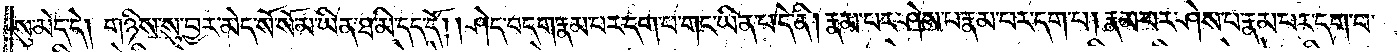སུ་མེད་དེ། གཉིས་སུ་བྱར་མེད་སོ་སོ་མ་ཡིན་ཐ་མི་དད་དོ། །ཤེད་བདག་རྣམ་པར་དག་པ་གང་ཡིན་པ་དེ་ནི། རྣམ་པར་ཤེས་པ་རྣམ་པར་དག་པ། རྣམ་པར་ཤེས་པ་རྣམ་པར་དག་པ་
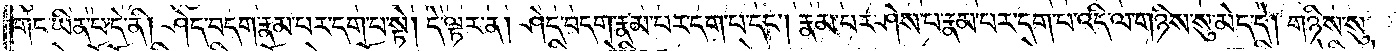གང་ཡིན་པ་དེ་ནི། ཤེད་བདག་རྣམ་པར་དག་པ་སྟེ། དེ་ལྟར་ན། ཤེད་བདག་རྣམ་པར་དག་པ་དང༌། རྣམ་པར་ཤེས་པ་རྣམ་པར་དག་པ་འདི་ལ་གཉིས་སུ་མེད་དེ། གཉིས་སུ་
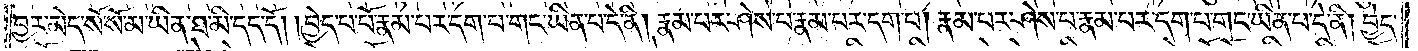བྱར་མེད་སོ་སོ་མ་ཡིན་ཐ་མི་དད་དོ། །བྱེད་པ་པོ་རྣམ་པར་དག་པ་གང་ཡིན་པ་དེ་ནི། རྣམ་པར་ཤེས་པ་རྣམ་པར་དག་པ། རྣམ་པར་ཤེས་པ་རྣམ་པར་དག་པ་གང་ཡིན་པ་དེ་ནི། བྱེད་
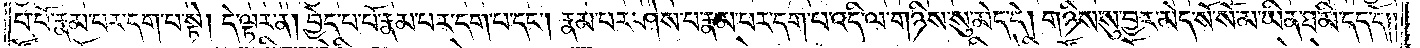པ་པོ་རྣམ་པར་དག་པ་སྟེ། དེ་ལྟར་ན། བྱེད་པ་པོ་རྣམ་པར་དག་པ་དང༌། རྣམ་པར་ཤེས་པ་རྣམ་པར་དག་པ་འདི་ལ་གཉིས་སུ་མེད་དེ། གཉིས་སུ་བྱར་མེད་སོ་སོ་མ་ཡིན་ཐ་མི་དད་དོ། །
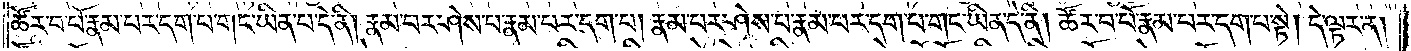ཚོར་བ་པོ་རྣམ་པར་དག་པ་གང་ཡིན་པ་དེ་ནི། རྣམ་པར་ཤེས་པ་རྣམ་པར་དག་པ། རྣམ་པར་ཤེས་པ་རྣམ་པར་དག་པ་གང་ཡིན་པ་དེ་ནི། ཚོར་བ་པོ་རྣམ་པར་དག་པ་སྟེ། དེ་ལྟར་ན།
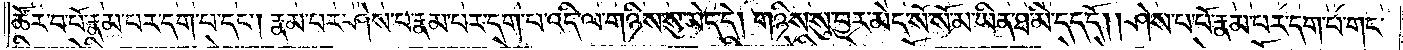ཚོར་བ་པོ་རྣམ་པར་དག་པ་དང༌། རྣམ་པར་ཤེས་པ་རྣམ་པར་དག་པ་འདི་ལ་གཉིས་སུ་མེད་དེ། གཉིས་སུ་བྱར་མེད་སོ་སོ་མ་ཡིན་ཐ་མི་དད་དོ། །ཤེས་པ་པོ་རྣམ་པར་དག་པ་གང་
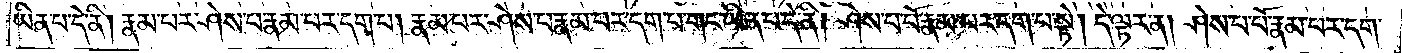ཡིན་པ་དེ་ནི། རྣམ་པར་ཤེས་པ་རྣམ་པར་དག་པ། རྣམ་པར་ཤེས་པ་རྣམ་པར་དག་པ་གང་ཡིན་པ་དེ་ནི། ཤེས་པ་པོ་རྣམ་པར་དག་པ་སྟེ། དེ་ལྟར་ན། ཤེས་པ་པོ་རྣམ་པར་དག་
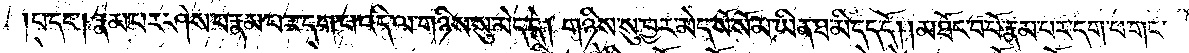པ་དང༌། རྣམ་པར་ཤེས་པ་རྣམ་པར་དག་པ་འདི་ལ་གཉིས་སུ་མེད་དེ། གཉིས་སུ་བྱར་མེད་སོ་སོ་མ་ཡིན་ཐ་མི་དད་དོ། །མཐོང་བ་པོ་རྣམ་པར་དག་པ་གང་
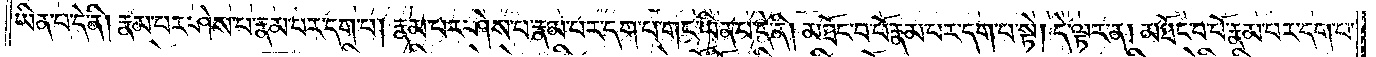ཡིན་པ་དེ་ནི། རྣམ་པར་ཤེས་པ་རྣམ་པར་དག་པ། རྣམ་པར་ཤེས་པ་རྣམ་པར་དག་པ་གང་ཡིན་པ་དེ་ནི། མཐོང་བ་པོ་རྣམ་པར་དག་པ་སྟེ། དེ་ལྟར་ན། མཐོང་བ་པོ་རྣམ་པར་དག་པ་
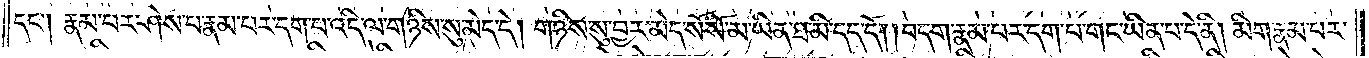དང༌། རྣམ་པར་ཤེས་པ་རྣམ་པར་དག་པ་འདི་ལ་གཉིས་སུ་མེད་དེ། གཉིས་སུ་བྱར་མེད་སོ་སོ་མ་ཡིན་ཐ་མི་དད་དོ། །བདག་རྣམ་པར་དག་པ་གང་ཡིན་པ་དེ་ནི། མིག་རྣམ་པར་
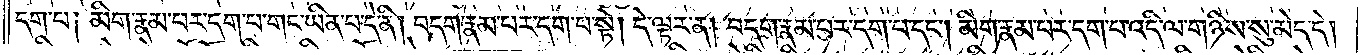དག་པ༑ མིག་རྣམ་པར་དག་པ་གང་ཡིན་པ་དེ་ནི། བདག་རྣམ་པར་དག་པ་སྟེ། དེ་ལྟར་ན། བདག་རྣམ་པར་དག་པ་དང༌། མིག་རྣམ་པར་དག་པ་འདི་ལ་གཉིས་སུ་མེད་དེ།
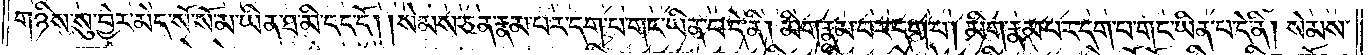གཉིས་སུ་བྱེར་མེད་སོ་སོ་མ་ཡིན་ཐ་མི་དད་དོ། །སེམས་ཅན་རྣམ་པར་དག་པ་གང་ཡིན་པ་དེ་ནི། མིག་རྣམ་པར་དག་པ། མིག་རྣམ་པར་དག་པ་གང་ཡིན་པ་དེ་ནི། སེམས་
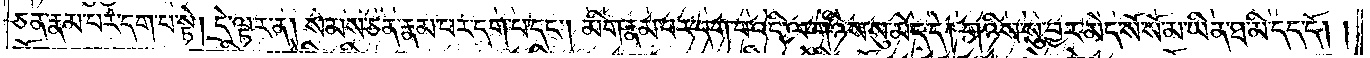ཅན་རྣམ་པར་དག་པ་སྟེ། དེ་ལྟར་ན། སེམས་ཅན་རྣམ་པར་དག་པ་དང༌། མིག་རྣམ་པར་དག་པ་འདི་ལ་གཉིས་སུ་མེད་དེ། གཉིས་སུ་བྱར་མེད་སོ་སོ་མ་ཡིན་ཐ་མི་དད་དོ། །
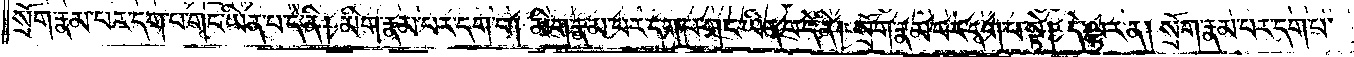སྲོག་རྣམ་པར་དག་པ་གང་ཡིན་པ་དེ་ནི། མིག་རྣམ་པར་དག་པ། མིག་རྣམ་པར་དག་པ་གང་ཡིན་པ་དེ་ནི། སྲོག་རྣམ་པར་དག་པ་སྟེ། དེ་ལྟར་ན། སྲོག་རྣམ་པར་དག་པ་
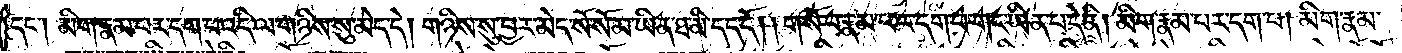དང༌། མིག་རྣམ་པར་དག་པ་འདི་ལ་གཉིས་སུ་མེད་དེ། གཉིས་སུ་བྱར་མེད་སོ་སོ་མ་ཡིན་ཐ་མི་དད་དོ། །གསོ་བ་རྣམ་པར་དག་པ་གང་ཡིན་པ་དེ་ནི། མིག་རྣམ་པར་དག་པ། མིག་རྣམ་
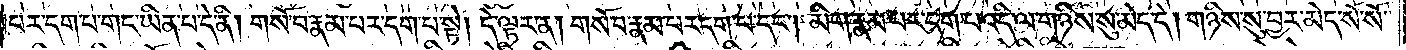པར་དག་པ་གང་ཡིན་པ་དེ་ནི། གསོ་བ་རྣམ་པར་དག་པ་སྟེ། དེ་ལྟར་ན། གསོ་བ་རྣམ་པར་དག་པ་དང༌། མིག་རྣམ་པར་དག་པ་འདི་ལ་གཉིས་སུ་མེད་དེ། གཉིས་སུ་བྱར་མེད་སོ་སོ་
